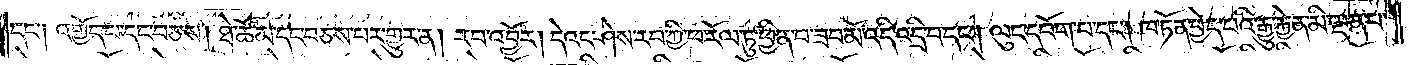དང་༑ འགྱོད་པ་དང་བཅས། ཐེ་ཚོམ་དང་བཅས་པར་གྱུར་ན། རབ་འབྱོར། དེའང་ཤེས་རབ་ཀྱི་ཕ་རོལ་ཏུ་ཕྱིན་པ་ཟབ་མོ་འདི་འདྲི་བ་དང༌། ལུང་དབོག་པ་དང༌། ཁ་ཏོན་བྱེད་པའི་རྒྱུ་རྐྱེན་མི་ལྡན་པ་
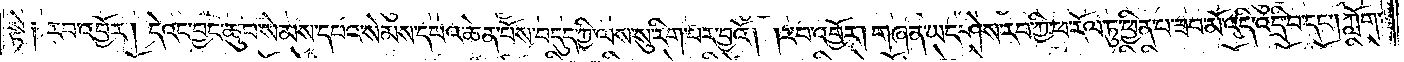སྟེ༑ རབ་འབྱོར། དེའང་བྱང་ཆུབ་སེམས་དཔའ་སེམས་དཔའ་ཆེན་པོས་བདུད་ཀྱི་ལས་སུ་རིག་པར་བྱའོ། །རབ་འབྱོར། གཞན་ཡང་ཤེས་རབ་ཀྱི་ཕ་རོལ་ཏུ་ཕྱིན་པ་ཟབ་མོ་འདི་འདྲི་བ་དང༌། ཀློག་
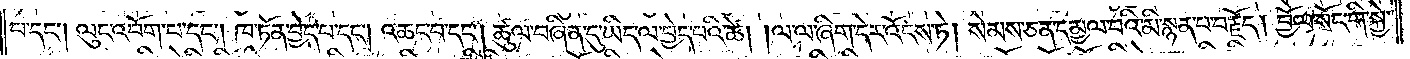པ་དང༌། ལུང་འབོག་པ་དང༌། ཁ་ཏོན་བྱེད་པ་དང༌། འཆང་བ་དང༌། ཚུལ་བཞིན་དུ་ཡིད་ལ་བྱེད་པའི་ཚེ། ལ་ལ་ཞིག་དེར་འོངས་ཏེ། སེམས་ཅན་དམྱལ་བའི་མི་སྙན་པ་བརྗོད། བྱོལ་སོང་གི་སྐྱེ་
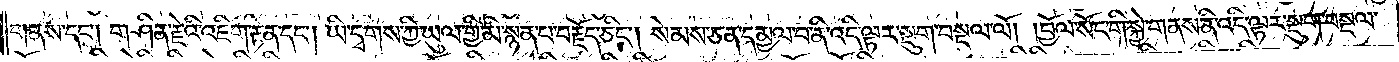གནས་དང༌། གཤིན་རྗེའི་འཇིག་རྟེན་དང༌། ཡི་དྭགས་ཀྱི་ཡུལ་གྱི་མི་སྙན་པ་བརྗོད་ཅིང༌། སེམས་ཅན་དམྱལ་བ་ནི་འདི་ལྟར་སྡུག་བསྔལ་ལོ། །བྱོལ་སོང་གི་སྐྱེ་གནས་ནི་འདི་ལྟར་སྡུག་བསྔལ་
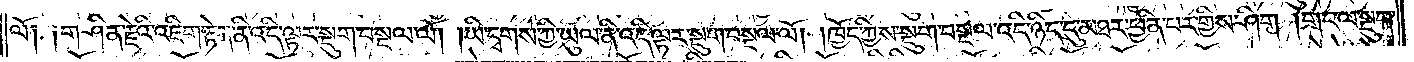ལོ༑ ༑གཤིན་རྗེའི་འཇིག་རྟེན་ནི་འདི་ལྟར་སྡུག་བསྔལ་ལོ། །ཡི་དྭགས་ཀྱི་ཡུལ་ནི་འདི་ལྟར་སྡུག་བསྔལ་ལོ། །ཁྱོད་ཀྱིས་སྡུག་བསྔལ་འདི་ཉིད་དུ་མཐར་ཕྱིན་པར་གྱིས་ཤིག །གང་ལ་སྡུག་
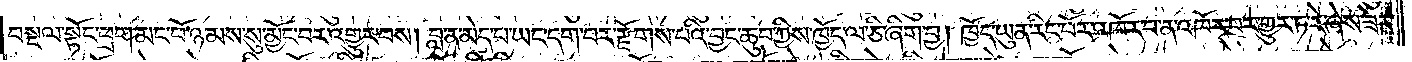བསྔལ་སྟོང་ཕྲག་མང་པོ་ཉམས་སུ་མྱོང་བར་འགྱུར་བས། བླ་ན་མེད་པ་ཡང་དག་པར་རྫོགས་པའི་བྱང་ཆུབ་ཀྱིས་ཁྱོད་ལ་ཅི་ཞིག་བྱ། ཁྱོད་ཡུན་རིང་པོར་འཁོར་བ་ན་འཁོར་བར་གྱུར་ཏ་རེ་ཞེས་ཟེར་
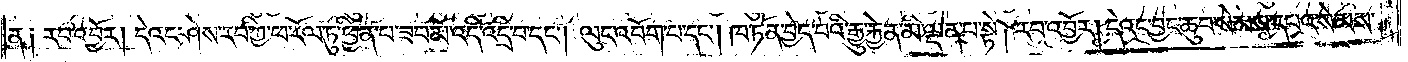ན། རབ་འབྱོར། དེའང་ཤེས་རབ་ཀྱི་ཕ་རོལ་ཏུ་ཕྱིན་པ་ཟབ་མོ་འདི་འདྲི་བ་དང༌། ལུང་འབོག་པ་དང༌། ཁ་ཏོན་བྱེད་པའི་རྒྱུ་རྐྱེན་མི་ལྡན་པ་སྟེ། རབ་འབྱོར། དེའང་བྱང་ཆུབ་སེམས་དཔའ་སེམས་
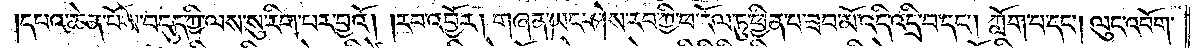དཔའ་ཆེན་པོས་བདུད་ཀྱི་ལས་སུ་རིག་པར་བྱའོ། །རབ་འབྱོར། གཞན་ཡང་ཤེས་རབ་ཀྱི་ཕ་རོལ་ཏུ་ཕྱིན་པ་ཟབ་མོ་འདི་འདྲི་བ་དང༌། ཀློག་པ་དང༌། ལུང་འབོག་
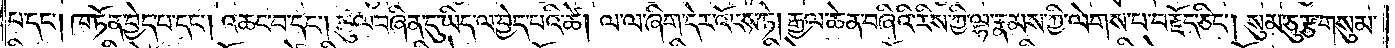པ་དང༌། ཁ་ཏོན་བྱེད་པ་དང༌། འཆང་བ་དང༌། ཚུལ་བཞིན་དུ་ཡིད་ལ་བྱེད་པའི་ཚེ། ལ་ལ་ཞིག་དེར་འོངས་ཏེ། རྒྱལ་ཆེན་བཞིའི་རིས་ཀྱི་ལྷ་རྣམས་ཀྱི་ལེགས་པ་བརྗོད་ཅིང༌། སུམ་ཅུ་རྩ་གསུམ་
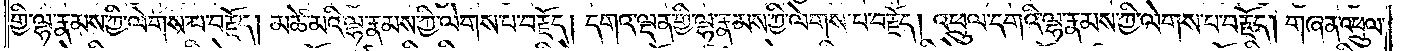གྱི་ལྷ་རྣམས་ཀྱི་ལེགས་པ་བརྗོད། མཚེ་མའི་ལྷ་རྣམས་ཀྱི་ལེགས་པ་བརྗོད། དགའ་ལྡན་གྱི་ལྷ་རྣམས་ཀྱི་ལེགས་པ་བརྗོད། འཕྲུལ་དགའི་ལྷ་རྣམས་ཀྱི་ལེགས་པ་བརྗོད། གཞན་འཕྲུལ་
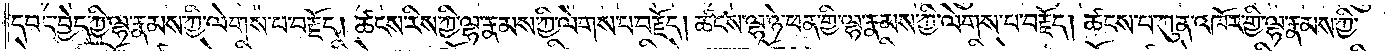དབང་བྱེད་ཀྱི་ལྷ་རྣམས་ཀྱི་ལེགས་པ་བརྗོད། ཚངས་རིས་ཀྱི་ལྷ་རྣམས་ཀྱི་ལེགས་པ་བརྗོད། ཚངས་ལྷ་ཉེ་ཕན་གྱི་ལྷ་རྣམས་ཀྱི་ལེགས་པ་བརྗོད། ཚངས་པ་ཀུན་འཁོར་གྱི་ལྷ་རྣམས་ཀྱི་
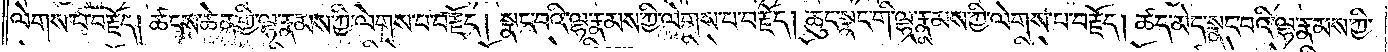ལེགས་པ་བརྗོད། ཚངས་ཆེན་གྱི་ལྷ་རྣམས་ཀྱི་ལེགས་པ་བརྗོད། སྣང་བའི་ལྷ་རྣམས་ཀྱི་ལེགས་པ་བརྗོད། ཆུང་སྣང་གི་ལྷ་རྣམས་ཀྱི་ལེགས་པ་བརྗོད། ཚད་མེད་སྣང་བའི་ལྷ་རྣམས་ཀྱི་
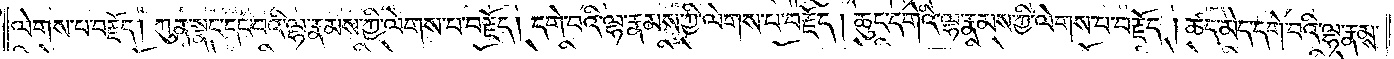ལེགས་པ་བརྗོད། ཀུན་སྣང་དང་བའི་ལྷ་རྣམས་ཀྱི་ལེགས་པ་བརྗོད། དགེ་བའི་ལྷ་རྣམས་ཀྱི་ལེགས་པ་བརྗོད། ཆུང་དགེའི་ལྷ་རྣམས་ཀྱི་ལེགས་པ་བརྗོད། ཚད་མེད་དགེ་བའི་ལྷ་རྣམས་
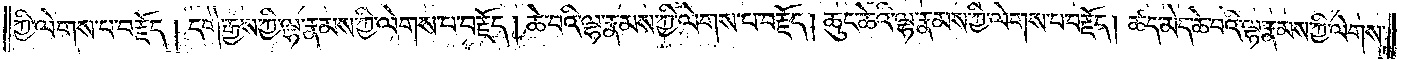ཀྱི་ལེགས་པ་བརྗོད། དགེ་རྒྱས་ཀྱི་ལྷ་རྣམས་ཀྱི་ལེགས་པ་བརྗོད། ཆེ་བའི་ལྷ་རྣམས་ཀྱི་ལེགས་པ་བརྗོད། ཆུང་ཆེའི་ལྷ་རྣམས་ཀྱི་ལེགས་པ་བརྗོད། ཚད་མེད་ཆེ་བའི་ལྷ་རྣམས་ཀྱི་ལེགས་
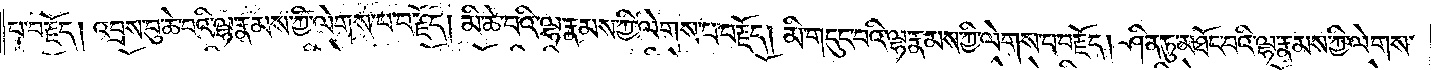པ་བརྗོད། འབྲས་བུ་ཆེ་བའི་ལྷ་རྣམས་ཀྱི་ལེགས་པ་བརྗོད། མི་ཆེ་བའི་ལྷ་རྣམས་ཀྱི་ལེགས་པ་བརྗོད། མི་གདུང་བའི་ལྷ་རྣམས་ཀྱི་ལེགས་པ་བརྗོད། ཤིན་ཏུ་མཐོང་བའི་ལྷ་རྣམས་ཀྱི་ལེགས་
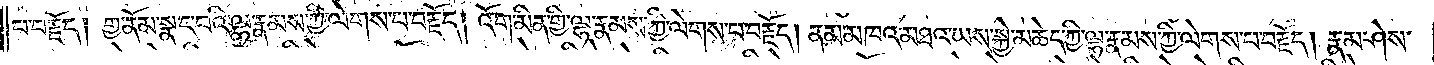པ་བརྗོད། གྱ་ནོམ་སྣང་བའི་ལྷ་རྣམས་ཀྱི་ལེགས་པ་བརྗོད། །འོག་མིན་གྱི་ལྷ་རྣམས་ཀྱི་ལེགས་པ་བརྗོད། ནམ་མཁའ་མཐའ་ཡས་སྐྱེ་མཆེད་ཀྱི་ལྷ་རྣམས་ཀྱི་ལེགས་པ་བརྗོད། རྣམ་ཤེས་
